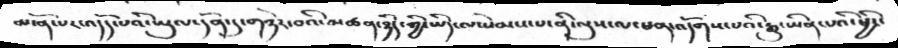མངོན་པར་འདོད་པའི་ཡུལ་དོན་དུ་གཉེར་བའི་མཚན་ཉིད་ཀྱི་ཡིད་ལ་སེམས་པ་ནི་ལུས་ལ་ཕན་འདོགས་པའི་རྒྱུ་ཡིན་པའི་ཕྱིར་
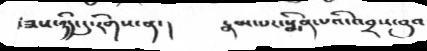།ཟས་ཉིད་དུ་རིགས་ན་།      རྣམ་པར་སྨིན་པའི་འབྲས་བུའ
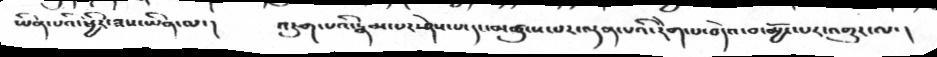ཡིན་པའི་ཕྱིར་ཟས་ཡིན་ལ་།  འཇུག་པའི་རྣམ་པར་ཤེས་པ་དང་མཚུངས་པར་ལྡན་པའི་རེག་པ་བདེའ་བ་མྱོང་པར་འགྱུར་ལ་།
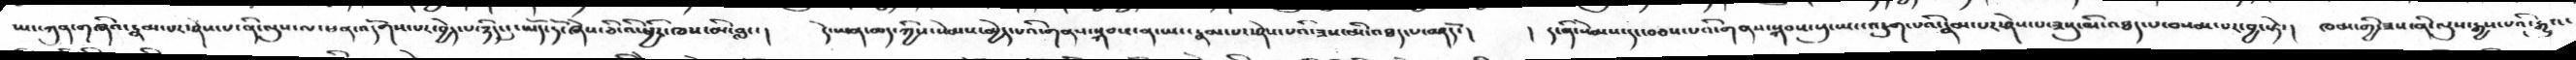ཡང་ཀུན་གཞིའ་རྣམ་པར་ཤེས་པ་ནི་ལུས་ལ་ཕན་འདོགས་པར་བྱེད་པ་ཉིད་དུ་ཡོད་དོ་ཞེས་ཅི་འི་ཕྱིར་ཁས་མི་བླང་།  དེ་ཡན་ཆད་ཀྱིས་སེམས་མྱེད་པའི་གནས་སྐབས་ན་ཡང་རྣམ་པར་ཤེས་པའི་ཟས་མི་འཐད་པ་བཤདོ་།  །ད་ནི་སེམས་དང་བབས་པའི་གནས་སྐབས་སུ་ཡང་འཇུག་པའི་རྣམ་པར་ཤེས་པ་ཟསུ་མི་འཐད་པ་བསམ་པར་བྱ་སྟེ་།  ཁམ་གྱི་ཟས་ནི་ལུས་རྒྱས་པའི་རྒྱུའ་
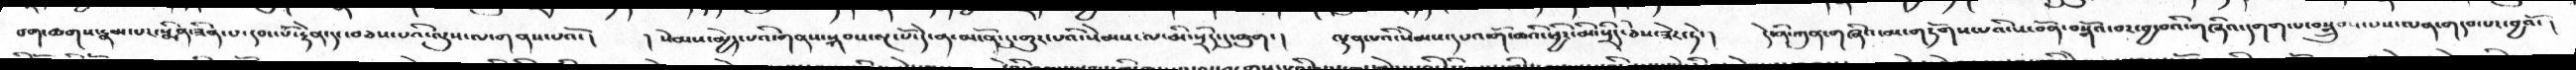བག་ཆགས་རྣམ་པར་སྨིན་ཟིན་པ་དབང་པོ་རྟེན་དང་བཅས་པའི་ལུས་ལ་གནས་པའོ་།  ། སེམས་མྱེད་པའི་གནས་སྐབས་ལྔ་པོ་དེ་ན་མངོན་དུ་གྱུར་པའི་སེམས་ལ་མི་སྲིད་དུ་ཞུག་།  ལྡན་པའི་སེམས་དཔའ་གོ་ཆའི་ཕྱིར་མི་སྲིད་ཅེས་ཟེར་ཏེ་།  དེ་ནི་ཀུན་གཞིའ་མ་གཏོགས་པའི་ས་བོན་བསྒོའ་བར་བྱ་བའི་གཞིའ་དགག་པ་བསྒྲུབས་པས་ལན་གདབ་པར་བྱའོ་།
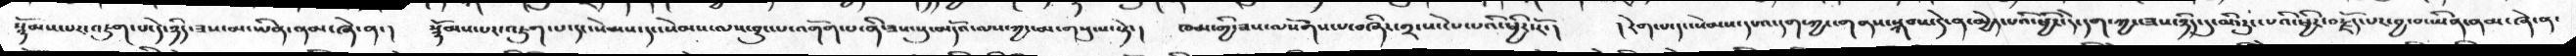སྙོམས་པར་འཇུག་པ་དེ་ཉིད་ཟས་མ་ཡིན་ནམ་ཞེ་ན་།  སྙོམས་པར་འཇུག་པ་དང་སེམས་དང་སེམས་ལས་བྱུང་པ་འགོག་པནི་ཟས་སུ་མདོའ་ལས་ཀྱང་མ་གསུངས་སྟེ་།  ཁམ་གྱི་ཟས་ལསོགས་པ་བཞིར་གྲངས་ངེས་པའི་ཕྱིར་རོ་།  །རེག་པ་དང་སེམས་དཔའ་དག་ཀྱང་གནས་སྐབས་དེ་ན་མྱེད་པའི་ཕྱིར་དེ་དག་ཀྱང་ཟས་ཉིད་དུ་མི་རུང་པའི་ཕྱིར་བརྗོད་པར་བྱ་བ་ཡིན་ནམ་ཞེ་ན་
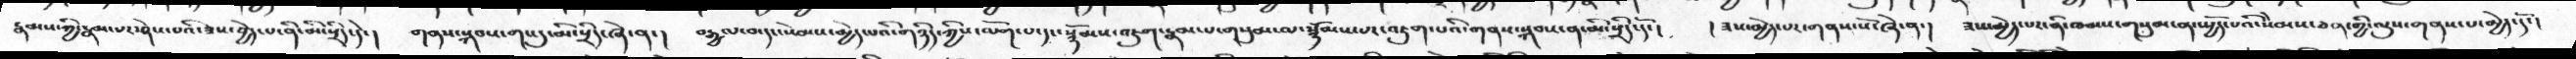རྣམས་ཀྱི་རྣམ་པར་ཤེས་པའི་ཟས་བྱེད་པ་ནི་མི་སྲིད་དེ་།  གནས་སྐབས་གང་དུ་མི་སྲིད་ཞེ་ན་།  བརྒྱལ་བ་དང་སེམས་མྱེད་པའི་གཉིད་ཀྱིས་ལོག་པ་དང་སྙོམས་འཇུག་རྣམ་པ་གསུམ་ལ་སྙོམས་པར་འཇུག་པའི་གནས་སྐབས་ན་མི་སྲིད་དོ་།  །ཟས་མྱེད་པར་གནས་སོ་ཞེ་ན་།  ཟས་མྱེད་པར་ནི་ཁམས་གསུམ་ན་སྤྱོད་པའི་སེམས་ཅན་གྱི་ལུས་གནས་པ་མྱེད་དོ་།
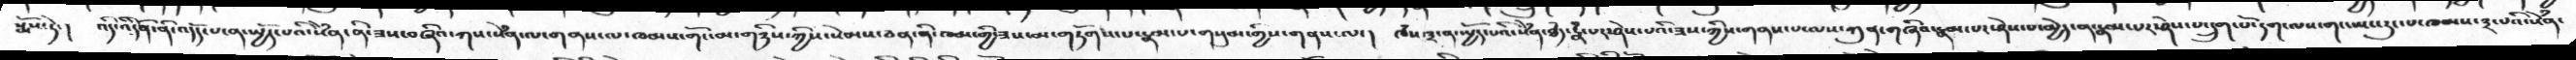སྨོས་ཏེ་།    འདི་འིདོན་ནི་འདོད་པ་ན་སྤྱོད་པའི་སེཾན་ནི་ཟས་བཞིའ་ཀས་སེཾན་ལ་གནས་ལ་ཁམས་གོང་མ་གཉིས་ཀྱིས་སེམས་ཅན་ནི་ཁམ་གྱི་ཟས་མ་གཏོགས་པ་རྣམ་པ་གསུམ་གྱིས་གནས་ལ་།   ཁཾས་༣་ན་སྤྱོད་པའི་སེཾན་ཐཾད་རྣཾ་པར་ཤེས་པའི་ཟས་ཀྱིས་གནས་པ་ལས་ཀུན་གཞིབ་རྣམ་པར་ཤེས་པ་མྱེད་ན་རྣམ་པར་ཤེས་པ་དྲུག་པོ་དག་ལས་གང་ཡང་རུང་པ་ཁམས་༣་པའི་སེཾན་
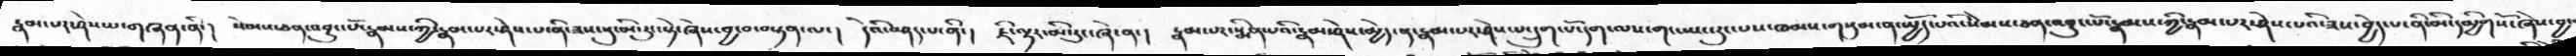རྣམ་པར་ཤེས་པ་གཞན་ནི་།   སེམས་ཅན་འབྱུང་པོ་རྣམས་ཀྱི་རྣམ་པར་ཤེས་པ་ནི་ཟས་སུ་མི་རུང་སྟེ་ཞེས་བྱ་བ་བསྟན་ལ་།   དེའི་བཤད་པ་ནི་།   ཇི་ལྟར་མི་རུང་ཞེ་ན་།   རྣམ་པར་སྨིན་པའི་རྣམ་ཤེས་མྱེད་ན་རྣམ་པར་ཤེས་པ་དྲུག་པོ་དག་ལས་གང་ཡང་རུང་པས་ཁམས་གསུམ་ན་སྤྱོད་པའི་སེམས་ཅན་འབྱུང་པོ་རྣམས་ཀྱི་རྣམ་པར་ཤེས་པའི་ཟས་བྱེད་པ་ནི་མི་དམྱིགསོ་ཞེས་བྱ་
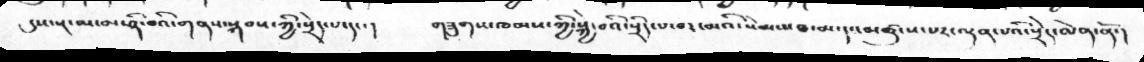དུས་སྔ་མ་མ་ཤི་བའི་གནས་སྐབས་ཀྱི་སྲེད་པ་དང་།   གཟུགས་ཁམས་ཀྱི་སྐྱེ་བའི་སྲིད་པ་བར་མའི་སེམས་ཐ་མ་དང་མཚུངས་པར་ལྡན་པའི་སྲེད་ལེན་ནོ་།
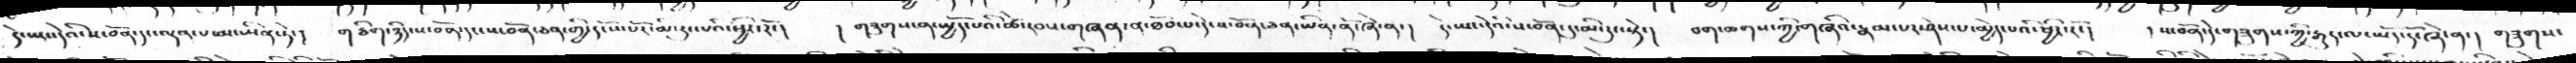དེ་ཡང་དེའི་ས་བོན་དང་ལྡན་པ་མ་་ཡིན་ཏེ་།   གཅིག་ཉིད་ས་བོན་དང་ས་བོན་ཅན་གྱི་དངོས་པོར་མི་རུང་པའི་ཕྱིར་རོ་།  །གཟུགས་ན་སྤྱོད་པའི་ཚེ་རབས་གཞན་ན་ཐོབ་པ་དེ་ས་བོན་ཅན་ཡིན་ནོ་ཞེ་ན་།   དེ་ཡང་དེའི་ས་བོན་དུ་མི་རུང་སྟེ་།  བག་ཆགས་ཀྱི་གཞིའ་རྣམ་པར་ཤེས་པ་མྱེད་པའི་ཕྱིར་རོ་།  །ས་བོན་དེ་གཟུགས་ཀྱི་རྒྱུད་ལ་ཡོད་དོ་ཞེ་ན་།  གཟུགས་
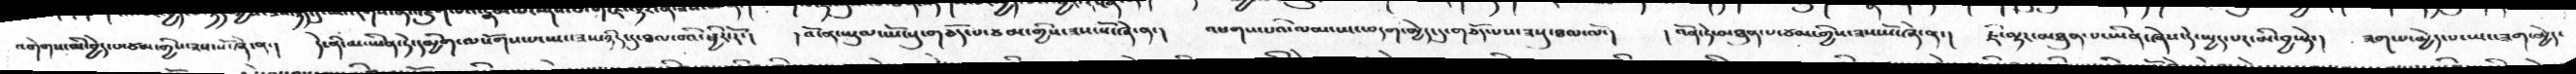འགེགས་མི་བྱེད་པ་ཙམ་གྱིས་ཟས་སོ་ཞེ་ན་།    དེ་ནི་མ་ཡིན་ཏེ་དམྱིག་ལསོགས་པ་ཡང་ཟས་ཉིད་དུ་ཐལ་བའི་ཕྱིར་རོ་།   ། འོ་ན་ཡུལ་ཡོངསུ་གཅོད་པ་ཙམ་གྱིས་ཟས་སོ་ཞེ་ན་།   འཕགས་པའི་ལམ་ཡང་བདག་མྱེད་དུ་གཅོད་པས་ཟསུ་ཐལ་ལོ་།   ། འོན་ཏེ་མཐུན་པ་ཙམ་གྱིས་ཟས་སོ་ཞེ་ན་།   ཇི་ལྟར་མཐུན་པ་ཡིན་ཞེས་དེ་སྤྱད་པར་མི་བྱ་སྟེ་།   ཟག་པ་མྱེད་པ་ཡང་ཟག་མྱེད་
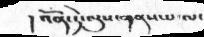།འོན་ཏེ་ལུས་གནས་པ་ལ་
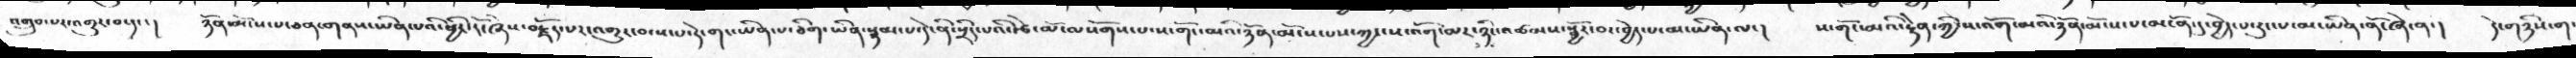འགྲུབ་པར་འགྱུར་བ་དང་།   ཉོན་མོངས་པ་ཅན་གནས་ཡིན་པའི་ཕྱིར་རོ་ཞེས་བརྗོད་པར་འགྱུར་བ་ས་པ་དེ་གང་ཡིན་པ་ཅིག་ཡིན་སྙམ་པ་དེ་ནི་སྲིད་པའི་རྩེ་མོ་ལསོགས་པ་ས་གོང་མའི་ཉོན་མོངས་པས་ཀྱང་ས་འོག་མར་ཉིང་འཚམས་སྦྱོར་བར་བྱེད་པ་མ་ཡིན་ལ་།   ས་གོང་མའི་རྟེན་ཀྱི་ས་འོག་མའི་ཉོན་མོངས་པ་མངོན་དུ་བྱེད་པ་རུང་པ་མ་ཡིན་ནོ་ཞེ་ན་།   དེ་གཉིས་ག
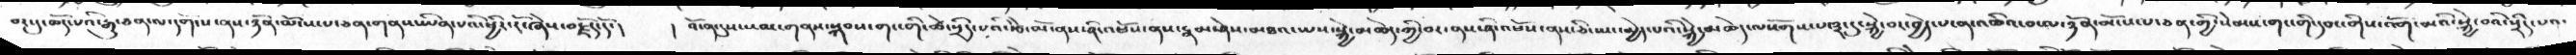བར་དུ་ཆོད་པའི་རྒྱུ་ཅན་ལ་དགོངས་ནས་ཉོན་མོངས་པ་ཅན་གནས་ཡིན་པའི་ཕྱིར་རོ་ཞེས་བརྗོད་དོ་་།  ། འོ་ན་དུས་སམ་གནས་སྐབས་གང་གི་ཚེ་སྲིད་པའི་རྩེ་མོ་ནས་ཤི་འཕོས་ནས་རྣམ་ཤེས་མཐའ་ཡས་སྐྱེ་མཆེད་ཀྱི་བར་ནས་ཤི་འཕོས་ནས་ཅི་ཡང་མྱེད་པའི་སྐྱེ་མཆེད་ལསོགས་་པ་༣་དུ་སྐྱེ་བར་བྱེད་པ་ན་འཆིའ་བ་ལ་ཉོན་མོངས་པ་ཅན་གྱི་སེམས་གང་གི་དབང་གིས་འོག་མའི་སྐྱེ་བའི་སྲིད་པའ་
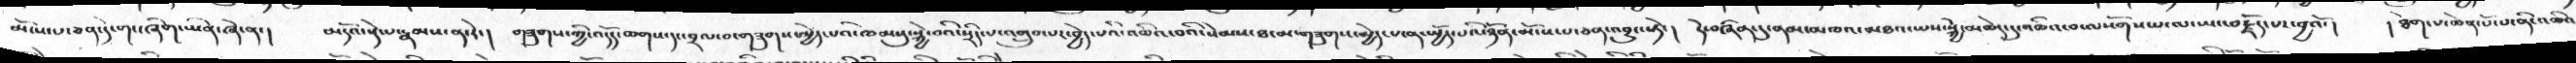མོངས་པ་ཅན་དེ་གང་ཞིག་ཡིན་ཞེ་ན་།   མདོའ་སྡེ་པ་རྣམས་ན་རེ་།  གཟུགས་ཀྱི་འདོད་ཆགས་དང་བྲལ་བ་གཟུགས་མྱེད་པའི་ཁམསུ་སྐྱེ་བའི་སྲིད་པ་འགྲུབ་པར་བྱེད་པའི་འཆིའ་བའི་སེམས་ཐ་མ་གཟུགས་མྱེད་པ་ན་སྤྱོད་པའི་ཉོན་མོངས་པ་ཅན་འབྱུང་ཏེ་།  དེ་བཞིན་དུ་ནམ་མཁའ་མཐའ་ཡས་སྐྱེ་མཆེད་དུ་འཆིའ་བ་ལསོགས་པ་ལ་ཡང་བརྗོད་པར་བྱའོ་།  ། ཐེག་པ་ཆེན་པོ་པ་ནི་འཆིའ་
